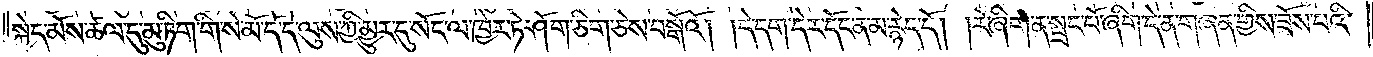སྐྱེད་མོས་ཚལ་དུ་མུ་ཏིག་གི་སེ་མོ་དོ་དེ་ལུས་ཀྱི་མྱུར་དུ་སོང་ལ་ཁྱེར་ཏེ་ཤོག་ཅིག་ཅེས་བསྒོའོ། །དེ་དག་དེར་དོང་ན་མ་རྙེད་དོ། །རེ་ཞིག་ན་སྤྲང་པོ་ཞིག་དེ་ན་གཞན་གྱིས་ཟོས་པའི་
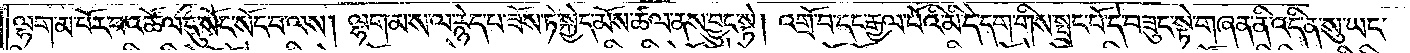ལྷག་མ་པོ་རབ་འཚོལ་དུ་སོང་སོང་བ་ལས། ལྷག་མས་ལ་རྙེད་པ་ཟོས་ཏེ་སྐྱེད་མོས་ཚལ་ནས་བྱུང་སྟེ། འགྲོ་བ་དང་རྒྱལ་པོའི་མི་དེ་དག་གིས་སྤྲང་པོ་དེ་བཟུང་སྟེ་གཞན་ནི་འདི་ན་སུ་ཡང་
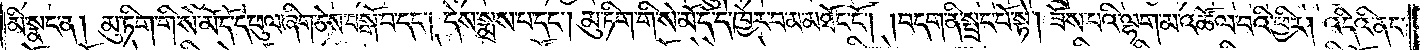མི་སྣང་ན། མུ་ཏིག་གི་སེ་མོ་དོ་དེ་ཕུལ་ཞིག་ཅེས་བསྒོ་བ་དང༌། དེས་སྨྲས་པ་དང༌། མུ་ཏིག་གི་སེ་མོ་དོ་དེ་ཁྱེར་བ་མ་མཐོང་ངོ༌། །བདག་ནི་སྤྲང་པོ་སྟེ། ཟོས་པའི་ལྷག་མ་འཚོལ་བའི་ཕྱིར། འདིའི་ནང་
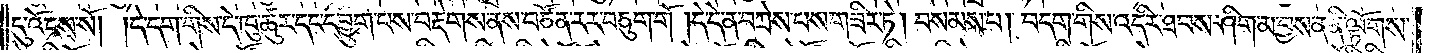དུ་འོངས་སོ། །དེ་དག་གིས་དེ་ཁུ་ཚུར་དང་དབྱུག་པས་བརྡེགས་ནས་བཙོན་རར་བཅུག་གོ །དེ་དེ་ན་བཀྲེས་པས་གཟིར་ཏེ། བསམས་པ། བདག་གིས་འདིར་ཐབས་ཤིག་མ་བྱས་ན་ནི་ལྟོགས་
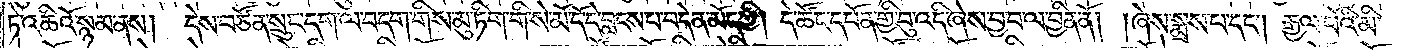ཏེ་འཆིའོ་སྙམ་ནས། དེས་བཙོན་སྲུང་དག་ལ་བདག་གིས་མུ་ཏིག་གི་སེ་མོ་དོ་དེ་བླངས་པ་བདེན་མོད་ཀྱི། དེ་ཚོང་དཔོན་གྱི་བུ་འདི་ཞེས་བྱ་བ་ལ་བྱིན་ནོ། །ཞེས་སྨྲས་པ་དང༌། རྒྱལ་པོའི་མི་
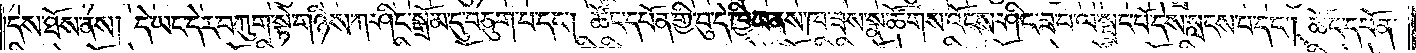དེས་ཐོས་ནས། དེ་ཡང་དེར་བཀུག་སྟེ་གཉིས་ཀ་ཤིང་སྒྲོམ་དུ་བཅུག་པ་དང༌། ཚོང་དཔོན་གྱི་བུ་དེ་ཁྱིམ་ནས་ཁ་ཟས་སྣ་ཚོགས་འོངས་ཤིང་ཟ་བ་ལ་སྤྲང་པོ་དེས་སླངས་པ་དང༌། ཚོང་དཔོན་
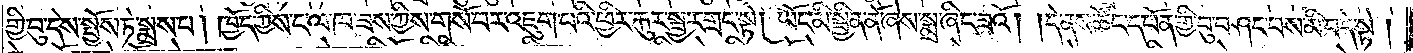གྱི་བུ་དེས་སྤྱོས་ཏེ་སྨྲས་པ། ཁྱོད་ཀྱིས་ང་ལ་ཁ་ཟས་ཀྱིས་གསོ་བར་འཇུག་པའི་ཕྱིར་རྐུར་སྦྱར་གྲང་སྟེ། ཡོང་མི་སྦྱིན་ནོ་ཞེས་སྨྲ་ཞིང་ཟའོ། །དེ་ནས་ཚོང་དཔོན་གྱི་བུ་བཤད་པས་མི་བདེ་སྟེ།
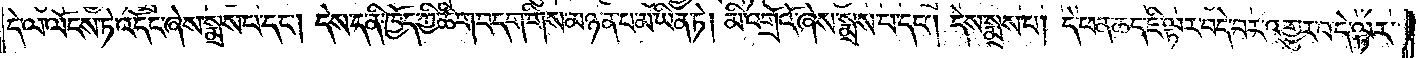དེ་ལ་ལོངས་ཏེ་འདོང་ཞེས་སྨྲས་པ་དང༌། དེས་ད་ནི་ཁྱོད་ཀྱི་ཚིག་བདག་གིས་མཉན་པ་མ་ཡིན་ཏེ། མི་འགྲོའོ་ཞེས་སྨྲས་པ་དང༌། དེས་སྨྲས་པ། དེ་ཕན་ཆད་ཇི་ལྟར་བདེ་བར་འགྱུར་བ་དེ་ལྟར་
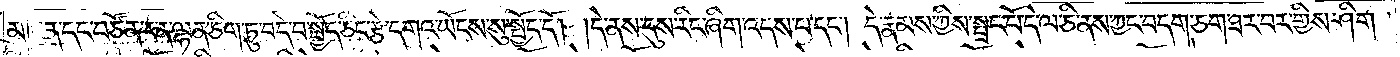མཁན་དང་བཙོན་ར་ན་ལྷན་ཅིག་ཏུ་བདེ་བ་སྤྱོད་ཅིང་རྩེ་དགའ་ཡོངས་སུ་སྤྱོད་དོ། །དེ་ནས་དུས་རིང་ཞིག་འདས་པ་དང༌། དེ་རྣམས་ཀྱིས་སྤྲང་པོ་དེ་ལ་ཅི་ནས་ཀྱང་བདག་ཅག་ཐར་བར་གྱིས་ཤིག།
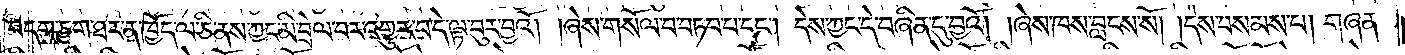བདག་ཅག་ཐར་ན་ཁྱོད་ལ་ཅི་ནས་ཀྱང་མི་བྲེལ་བར་འགྱུར་བ་དེ་ལྟ་བུར་བྱའོ། །ཞེས་གསོལ་བ་བཏབ་པ་དང༌། དེས་ཀྱང་དེ་བཞིན་དུ་བྱའོ། །ཞེས་ཁས་བླངས་སོ། །དེས་བསམས་པ། གཞན་
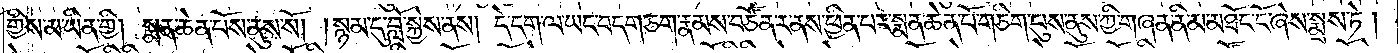གྱིས་མ་ཡིན་གྱི། སྨན་ཆེན་པོས་ནུས་སོ། །སྙམ་དུ་བློ་སྐྱེས་ནས། དེ་དག་ལ་ཡང་བདག་ཅག་རྣམས་བཙོན་ར་ནས་ཕྱིན་པར་སྨན་ཆེན་པོ་གཅིག་པུས་ནུས་ཀྱི་གཞན་ནི་མ་མཐོང་ངོ་ཞེས་སྨྲས་ཏེ།
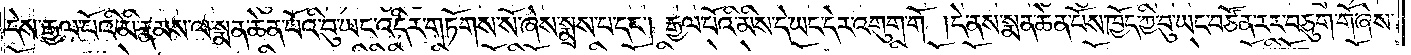དེས་རྒྱལ་པོའི་མི་རྣམས་ལ་སྨན་ཆེན་པོའི་བུ་ཡང་འདིར་གཏོགས་སོ་ཞེས་སྨྲས་པ་དང༌། རྒྱལ་པོའི་མིས་དེ་ཡང་དེར་འགུག་གོ །དེ་ནས་སྨན་ཆེན་པོས་ཁྱོད་ཀྱི་བུ་ཡང་བཙོན་རར་བཅུག་གོ་ཞེས་
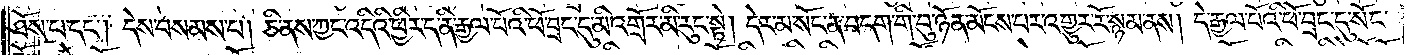ཐོས་པ་དང༌། དེས་བསམས་པ། ཅི་ནས་ཀྱང་འདིའི་ཕྱིར་ད་ནི་རྒྱལ་པོའི་ཕོ་བྲང་དུ་མི་འགྲོར་མི་རུང་སྟེ། དེར་མ་སོང་ན་བདག་གི་བུ་ཉོན་མོངས་པར་འགྱུར་རོ་སྙམ་ནས། དེ་རྒྱལ་པོའི་ཕོ་བྲང་དུ་སོང་
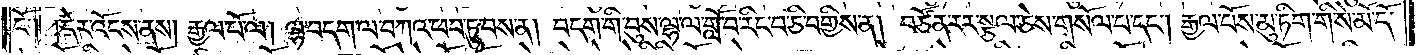ངོ༌། །དེར་འོངས་ནས། རྒྱལ་པོ་ལ། ལྷ་བདག་ལ་བཀའ་ཕབ་ཏུ་བས་ན། བདག་གི་བུས་ལྷ་ལ་གློ་བ་རིང་བ་ཅི་བགྱིས་ན། བཙོན་རར་སྩལ་ཅེས་གསོལ་པ་དང༌། རྒྱལ་པོས་མུ་ཏིག་གི་སེ་མོ་དོ་
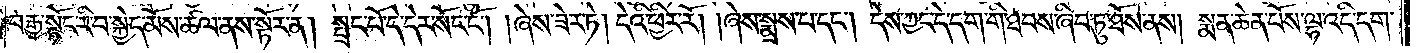བརྒྱ་སྟོང་རི་བ་སྐྱེད་མོས་ཚལ་ནས་སྟོར་ན། སྤྲང་པོ་དེ་དེར་སོང་ངོ༌། །ཞེས་ཟེར་ཏེ། དེའི་ཕྱིར་རོ། །ཞེས་སྨྲས་པ་དང༌། དེས་ཀྱང་དེ་དག་གི་ཐབས་ཞིབ་ཏུ་ཐོས་ནས། སྨན་ཆེན་པོས་ལྷ་འདི་དག་
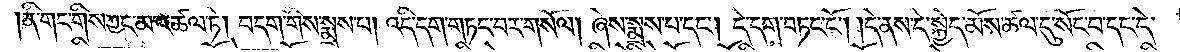ནི་གང་གིས་ཀྱང་མ་འཚལ་ཏེ། བདག་གིས་སྨྲས། འདི་དག་གཏང་བར་གསོལ། ཞེས་སྨྲས་པ་དང༌། དེ་དག་བཏང་ངོ༌། །དེ་ནས་དེ་སྐྱེད་མོས་ཚལ་དུ་སོང་བ་དང་དེ་
